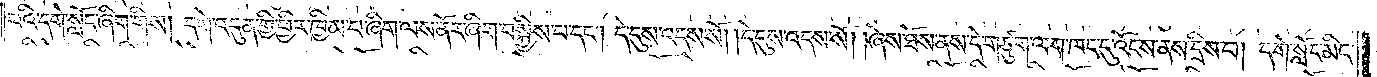པའི་དགེ་སློང་ཞིག་གིས། དགེ་འདུན་གྱི་ཕྱིར་ཁྱིམ་པ་ཞིག་ལས་ནོར་ཞིག་བསྐྱིས་པ་དང༌། དེ་དུས་འདས་སོ། །དེ་དུས་འདས་སོ། །ཞེས་ཐོས་ནས་དེ་གཙུག་ལག་ཁང་དུ་འོངས་ནས་དྲིས་པ། དགེ་སློང་མིང་
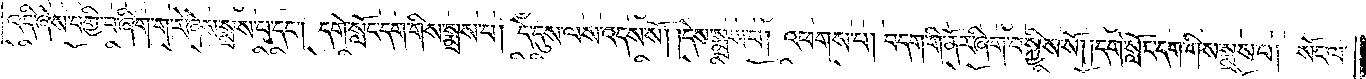འདི་ཞེས་བགྱི་བ་ཞིག་ག་རེ་ཞེས་སྨྲས་པ་དང༌། དགེ་སློང་དག་གིས་སྨྲས་པ། དེ་དུས་ལས་འདས་སོ། །དེས་སྨྲས་པ། འཕགས་པ། བདག་གི་ནོར་ཞིག་བསྐྱིས་སོ། །དགེ་སློང་དག་གིས་སྨྲས་པ། སོང་ལ་
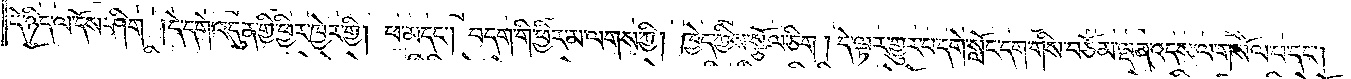དེ་ཉིད་ལ་དོས་ཤིག །དེ་དགེ་འདུན་གྱི་ཕྱིར་ཁྱེར་གྱི། ཕ་མ་དང༌། བདག་གི་ཕྱིར་མ་ལགས་ཀྱི། ཁྱེད་ཀྱིས་སྩོལ་ཅིག །དེ་ལྟར་གྱུར་པ་དགེ་སློང་དག་གིས་བཅོམ་ལྡན་འདས་ལ་གསོལ་པ་དང༌།
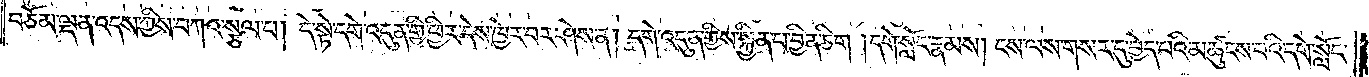བཅོམ་ལྡན་འདས་ཀྱིས་བཀའ་སྩལ་པ། དེ་སྟེ་དགེ་འདུན་གྱི་ཕྱིར་དེས་ཁྱེར་བར་ཤེས་ན། དགེ་འདུན་གྱིས་སྐྱིན་པ་བྱིན་ཅིག །དགེ་སློང་རྣམས། ངས་ལས་གསར་དུ་བྱེད་པའི་མཚུངས་པའི་དགེ་སློང་
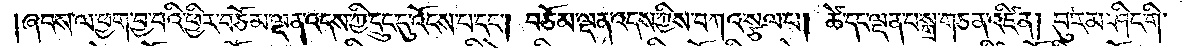ཞབས་ལ་ཕྱག་བྱ་བའི་ཕྱིར་བཅོམ་ལྡན་འདས་ཀྱི་དྲུང་དུ་འོངས་པ་དང༌། བཅོམ་ལྡན་འདས་ཀྱིས་བཀའ་སྩལ་པ། ཚེ་དང་ལྡན་པ་སྒྲ་གཅན་འཛིན། བུ་རམ་ཤིང་གི་
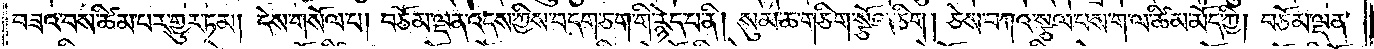བཟའ་བས་ཚིམ་པར་གྱུར་ཏམ། དེས་གསོལ་པ། བཅོམ་ལྡན་འདས་ཀྱིས་བདག་ཅག་གི་རྙེད་པ་ནི། སུམ་ཆ་གཅིག་སྩོལ་ཅིག །ཅེས་བཀའ་སྩལ་པས་ག་ལ་ཚིམ་མོད་ཀྱི། བཅོམ་ལྡན་
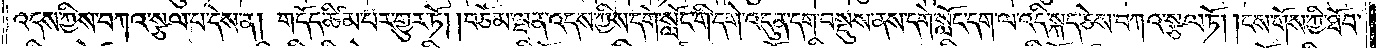འདས་ཀྱིས་བཀའ་སྩལ་པ་དེས་ན། གདོད་ཚིམ་པར་གྱུར་ཏོ། །བཅོམ་ལྡན་འདས་ཀྱིས་དགེ་སློང་གི་དགེ་འདུན་དག་བསྡུས་ནས་དགེ་སློང་དག་ལ་འདི་སྐད་ཅེས་བཀའ་སྩལ་ཏོ། །ངས་གོས་ཀྱི་ཐོབ་
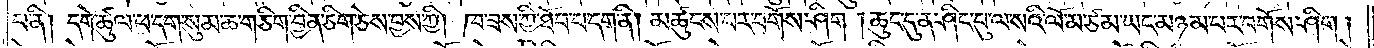པ་ནི། དགེ་ཚུལ་ཕ་དག་སུམ་ཆ་གཅིག་བྱིན་ཅིག་ཅེས་བྱས་ཀྱི། ཁ་ཟས་ཀྱི་ཐོབ་པ་དག་ནི། མཚུངས་པར་བགོས་ཤིག །ཆུང་དུ་ན་ཤིང་བུ་ལ་སའི་ལོ་མ་ཙམ་ཡང་མཉམ་པར་བགོས་ཤིག །
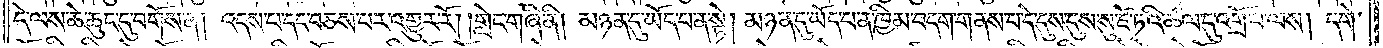དེ་ལས་ཆེ་ཆུང་དུ་བགོས་ན། འདས་པ་དང་བཅས་པར་འགྱུར་རོ། །གླེང་གཞི་ནི། མཉན་དུ་ཡོད་པ་ན་སྟེ། མཉན་དུ་ཡོད་པ་ན་ཁྱིམ་བདག་གནས་པ་དེ་དུས་དུས་སུ་ཛེ་ཏའི་ཚལ་དུ་འགྲོ་བ་ལས། དགེ་
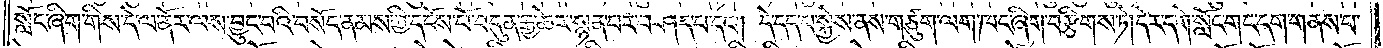སློང་ཞིག་གིས་དེ་ལ་ནོར་ལས་བྱུང་བའི་བསོད་ནམས་ཀྱི་དངོས་པོ་བདུན་རྒྱ་ཆེར་སྙན་པར་བཤད་པ་དང༌། དེ་དད་པ་སྐྱེས་ནས་གཙུག་ལག་ཁང་ཞིག་བརྩིགས་ཏེ། དེར་དགེ་སློང་གང་དག་གནས་པ་
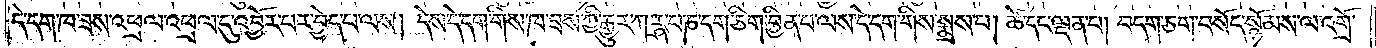དེ་དག་ཁ་ཟས་འཕྲལ་འཕྲལ་དུ་འབྱོར་བར་བྱེད་པ་ལས། དེས་དེ་དག་གིས་ཁ་ཟས་ཀྱི་རྒྱུར་ཀཪྴ་པ་ཎ་དག་ཅིག་བྱིན་པ་ལས་དེ་དག་གིས་སྨྲས་པ། ཚེ་དང་ལྡན་པ། བདག་ཅག་བསོད་སྙོམས་ལ་འགྲོ་
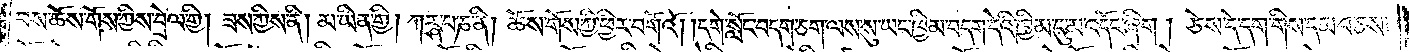བས་ཆོས་གས་ཀྱིས་བྲེལ་གྱི། ཟས་ཀྱིས་ནི། མ་ཡིན་གྱི། ཀཪྴ་པ་ཎ་ནི། ཆོས་གོས་ཀྱི་ཕྱིར་བགོའོ། །དགེ་སློང་བདག་ཅག་ལས་སུ་ཡང་ཁྱིམ་བདག་དེའི་ཁྱིམ་དུ་མ་འདོང་ཞིག །ཅེས་དེ་དག་གིས་དམ་བཅས་
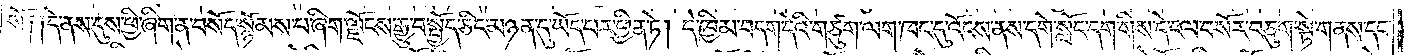སོ༑ ༑དེ་ནས་དུས་ཕྱི་ཞིག་ན་བསོད་སྙོམས་པ་ཞིག་ལྗོངས་རྒྱུ་བ་སྤྱོད་ཅིང་མཉན་དུ་ཡོད་པར་ཕྱིན་ཏེ། དེ་ཁྱིམ་བདག་དེའི་གཙུག་ལག་ཁང་དུ་འོངས་ནས་དགེ་སློང་དག་གིས་དེ་ངལ་བསོར་བཅུག་སྟེ་གནས་དང་
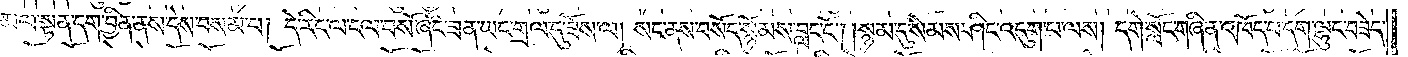མལ་སྟན་དག་བྱིན་ནས་དེས་བསམ་པ། དེ་རིང་ལ་ངལ་བསོ་ཞིང་ཟན་ཡང་གྲལ་དུ་ཟོས་ལ། སང་ནས་བསོད་སྙོམས་བླང་ངོ༌། །སྙམ་དུ་སེམས་ཤིང་འདུག་པ་ལས། དགེ་སློང་གཞི་ན་འཁོད་པ་དག་ལྷུང་བཟེད་
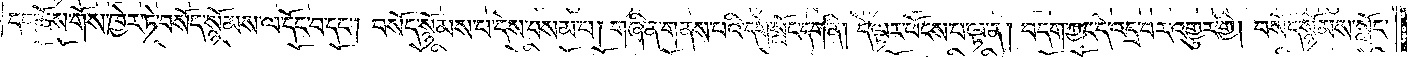དང་ཆོས་གོས་ཁྱེར་ཏེ་བསོད་སྙོམས་ལ་དོང་བ་དང༌། བསོད་སྙོམས་པ་དེས་བསམ་པ། གཞི་ན་གནས་པའི་དགེ་སློང་དག་ནི། དེ་ལྟར་ཕོངས་པ་ལྟ་ན། བདག་ཀྱང་དེ་འདྲ་བར་འགྱུར་གྱི། བསོད་སྙོམས་སློང་
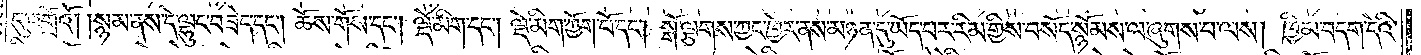དུ་འགྲོའོ། །སྙམ་ནས་དེ་ལྷུང་བཟེད་དང༌། ཆོས་གོས་དང༌། ལྡེ་མིག་དང༌། ལྡེ་མིག་ཀྱོག་པོ་དང༌། སྒོ་ལྕགས་ཀྱང་ཁྱེར་ནས་མཉན་དུ་ཡོད་པར་རིམ་གྱིས་བསོད་སྙོམས་ལ་ཞུགས་པ་ལས། ཁྱིམ་བདག་དེའི་
